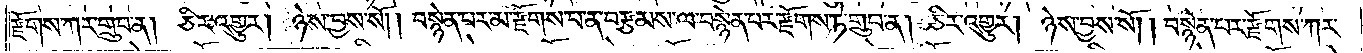རྫོགས་ཀར་གྲུབ་ན། ཅིར་འགྱུར། ཉེས་བྱས་སོ། །བསྙེན་པར་མ་རྫོགས་པ་ན་བརྩམས་ལ་བསྙེན་པར་རྫོགས་ཏེ་གྲུབ་ན། ཅིར་འགྱུར། ཉེས་བྱས་སོ། །བསྙེན་པར་རྫོགས་ཀར་
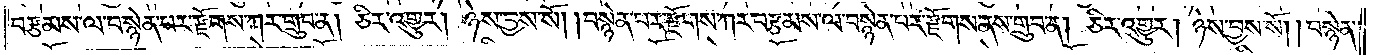བརྩམས་ལ་བསྙེན་པར་རྫོགས་ཀར་གྲུབ་ན། ཅིར་འགྱུར། ཉེས་བྱས་སོ། །བསྙེན་པར་རྫོགས་ཀར་བརྩམས་ལ་བསྙེན་པར་རྫོགས་ནས་གྲུབ་ན། ཅིར་འགྱུར། ཉེས་བྱས་སོ། །བསྙེན་
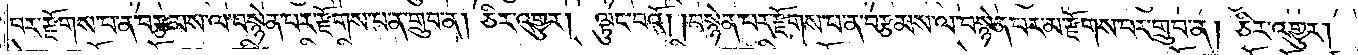པར་རྫོགས་པ་ན་བརྩམས་ལ་བསྙེན་པར་རྫོགས་པ་ན་གྲུབ་ན། ཅིར་འགྱུར། ལྟུང་བའོ། །བསྙེན་པར་རྫོགས་པ་ན་བརྩམས་ལ་བསྙེན་པར་མ་རྫོགས་པར་གྲུབ་ན། ཅིར་འགྱུར།
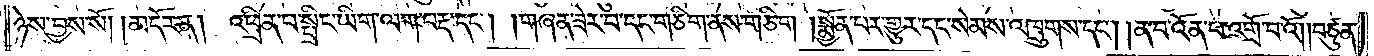ཉེས་བྱས་སོ། །མདོར་ན། འཕྲིན་པ་སྤྲིང་ཡིག་ལག་བརྡ་དང༌། །གཞན་ཟེར་བ་དང་གཅིག་ནས་གཅིག །སྨྱོན་པར་གྱུར་དང་སེམས་འཁྲུགས་དང༌། །ན་བ་འོན་པ་འགྲོ་བའོ། །བཙུན་
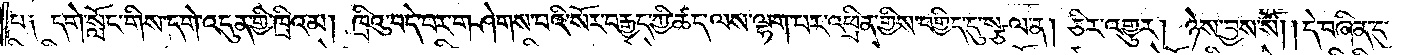པ༑ དགེ་སློང་གིས་དགེ་འདུན་གྱི་ཁྲིའམ། ཁྲིའུ་བདེ་བར་གཤེགས་པའི་སོར་བརྒྱད་ཀྱི་ཚད་ལས་ལྷག་པར་འཕྲིན་གྱིས་བགྱིད་དུ་སྩལ་ན། ཅིར་འགྱུར། ཉེས་བྱས་སོ། །དེ་བཞིན་དུ་
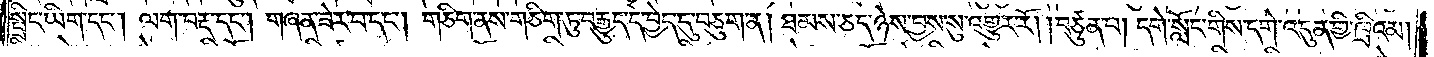སྤྲིང་ཡིག་དང༌། ལག་བརྡ་དང༌། གཞན་ཟེར་བ་དང༌། གཅིག་ནས་གཅིག་ཏུ་བརྒྱུད་དེ་བྱེད་དུ་བཅུག་ན། ཐམས་ཅད་ཉེས་བྱས་སུ་འགྱུར་རོ། །བཙུན་པ། དགེ་སློང་གིས་དགེ་འདུན་གྱི་ཁྲིའམ།
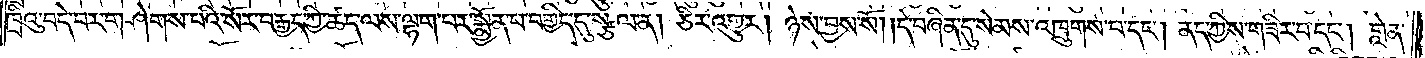ཁྲིའུ་བདེ་བར་གཤེགས་པའི་སོར་བརྒྱད་ཀྱི་ཚད་ལས་ལྷག་པར་སྨྱོན་པ་བགྱིད་དུ་སྩལ་ན། ཅིར་འགྱུར། ཉེས་བྱས་སོ། །དེ་བཞིན་དུ་སེམས་འཁྲུགས་པ་དང༌། ནད་ཀྱིས་གཟིར་བ་དང༌། གླེན་
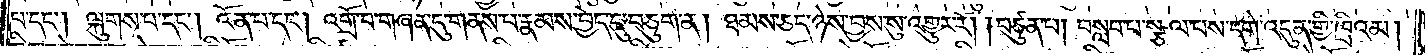པ་དང༌། ལྐུགས་པ་དང༌། འོན་པ་དང༌། འགྲོ་བ་གཞན་དུ་གནས་པ་རྣམས་བྱེད་དུ་བཅུག་ན། ཐམས་ཅད་ཉེས་བྱས་སུ་འགྱུར་རོ། །བཙུན་པ། བསླབ་པ་སྩལ་པས་དགེ་འདུན་གྱི་ཁྲིའམ།
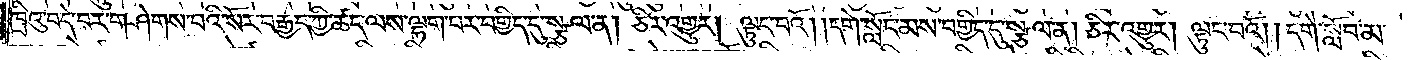ཁྲིའུ་བདེ་བར་གཤེགས་པའི་སོར་བརྒྱད་ཀྱི་ཚད་ལས་ལྷག་པར་བགྱིད་དུ་སྩལ་ན། ཅིར་འགྱུར། ལྟུང་བའོ། །དགེ་སློང་མས་བགྱིད་དུ་སྩལ་ན། ཅིར་འགྱུར། ལྟུང་བའོ། །དགེ་སློབ་མ་
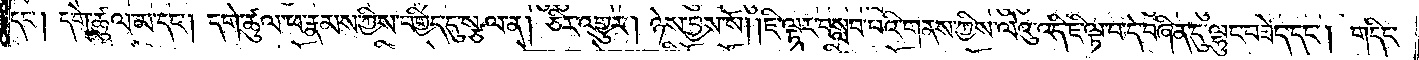དང༌། དགེ་ཚུལ་མ་དང༌། དགེ་ཚུལ་ཕ་རྣམས་ཀྱིས་བགྱིད་དུ་སྩལ་ན། ཅིར་འགྱུར། ཉེས་བྱས་སོ། །ཇི་ལྟར་བསླབ་པའི་གནས་ཀྱིས་ལེའུ་འདི་ཇི་ལྟ་བ་དེ་བཞིན་དུ་ལྷུང་བཟེད་དང༌། གདིང་
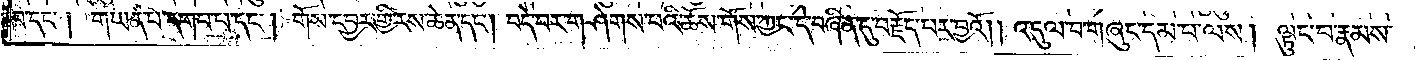བ་དང༌། གཡན་པ་དགབ་པ་དང༌། གོས་དབྱར་གྱི་རས་ཆེན་དང༌། བདེ་བར་གཤེགས་པའི་ཆོས་གོས་ཀྱང་དེ་བཞིན་དུ་བརྗོད་པར་བྱའོ། །འདུལ་བ་གཞུང་དམ་པ་ལས། ལྟུང་བ་རྣམས་
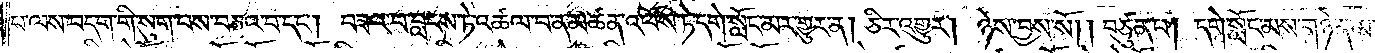པ་ལས་བདག་གི་སུག་བས་བཅའ་བ་དང༌། བཟའ་བ་བླངས་ཏེ་འཚལ་བ་ན་མཚན་འཕོས་ཏེ་དགེ་སློང་མར་གྱུར་ན། ཅིར་འགྱུར། ཉེས་བྱས་སོ། །བཙུན་པ། དགེ་སློང་མས་གཉེན་མ་
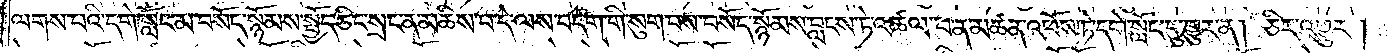ལགས་པའི་དགེ་སློང་མ་བསོད་སྙོམས་སྤྱོད་ཅིང་སྲང་ན་མཆིས་པ་དེ་ལས་བདག་གི་སུག་པས་བསོད་སྙོམས་བླངས་ཏེ་འཚལ་བ་ན་མཚན་འཕོས་ཏེ་དགེ་སློང་དུ་གྱུར་ན། ཅིར་འགྱུར།
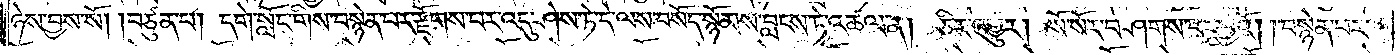ཉེས་བྱས་སོ། །བཙུན་པ། དགེ་སློང་གིས་བསྙེན་པར་རྫོགས་པར་འདུ་ཤེས་ཏེ་དེ་ལས་བསོད་སྙོམས་བླངས་ཏེ་འཚལ་ན། ཅིར་འགྱུར། སོ་སོར་བཤགས་པར་བྱའོ། །བསྙེན་པར་
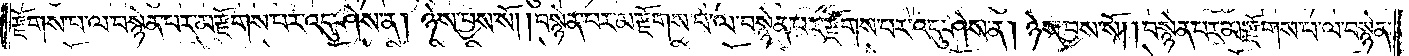རྫོགས་པ་ལ་བསྙེན་པར་མ་རྫོགས་པར་འདུ་ཤེས་ན། ཉེས་བྱས་སོ། །བསྙེན་པར་མ་རྫོགས་པ་ལ་བསྙེན་པར་རྫོགས་པར་འདུ་ཤེས་ན། ཉེས་བྱས་སོ། །བསྙེན་པར་མ་རྫོགས་པ་ལ་བསྙེན་
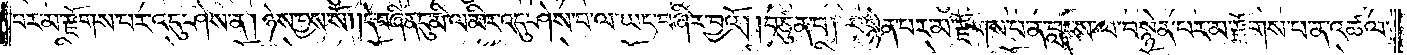པར་མ་རྫོགས་པར་འདུ་ཤེས་ན། ཉེས་བྱས་སོ། །དེ་བཞིན་དུ་མི་ལ་མིར་འདུ་ཤེས་པ་ལ་ཡང་བཞིར་བྱའོ། །བཙུན་པ། བསྙེན་པར་མ་རྫོགས་པ་ན་བླངས་ལ་བསྙེན་པར་མ་རྫོགས་པ་ན་འཚལ་
